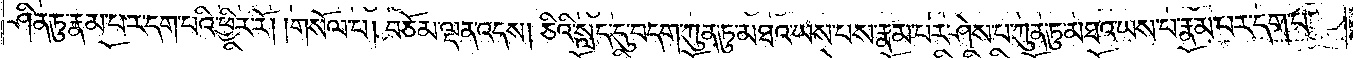ཤིན་ཏུ་རྣམ་པར་དག་པའི་ཕྱིར་རོ། །གསོལ་པ། བཅོམ་ལྡན་འདས། ཅིའི་སླད་དུ་བདག་ཀུན་ཏུ་མཐའ་ཡས་པས་རྣམ་པར་ཤེས་པ་ཀུན་ཏུ་མཐའ་ཡས་པ་རྣམ་པར་དག་པ་
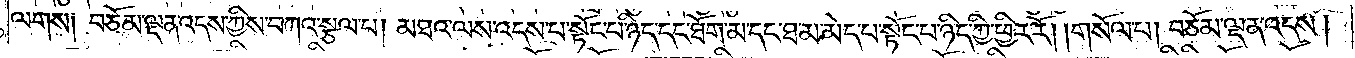ལགས༑ བཅོམ་ལྡན་འདས་ཀྱིས་བཀའ་སྩལ་པ། མཐའ་ལས་འདས་པ་སྟོང་པ་ཉིད་དང་ཐོག་མ་དང་ཐ་མ་མེད་པ་སྟོང་པ་ཉིད་ཀྱི་ཕྱིར་རོ། །གསོལ་པ། བཅོམ་ལྡན་འདས།
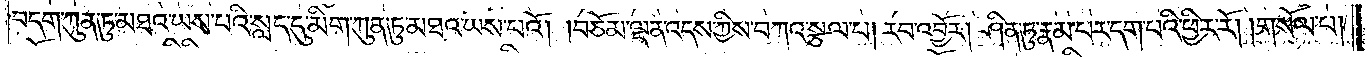བདག་ཀུན་ཏུ་མཐའ་ཡས་པའི་སླད་དུ་མིག་ཀུན་ཏུ་མཐའ་ཡས་པའོ། །བཅོམ་ལྡན་འདས་ཀྱིས་བཀའ་སྩལ་པ། རབ་འབྱོར། ཤིན་ཏུ་རྣམ་པར་དག་པའི་ཕྱིར་རོ། །གསོལ་པ།
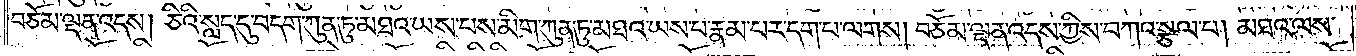བཅོམ་ལྡན་འདས། ཅིའི་སླད་དུ་བདག་ཀུན་ཏུ་མཐའ་ཡས་པས་མིག་ཀུན་ཏུ་མཐའ་ཡས་པ་རྣམ་པར་དག་པ་ལགས། བཅོམ་ལྡན་འདས་ཀྱིས་བཀའ་སྩལ་པ། མཐའ་ལས་
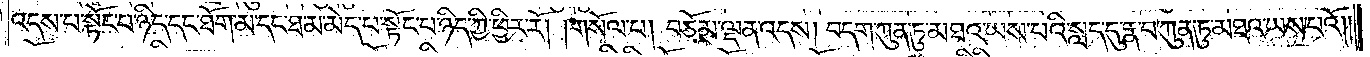འདས་པ་སྟོང་པ་ཉིད་དང་ཐོག་མ་དང་ཐ་མ་མེད་པ་སྟོང་པ་ཉིད་ཀྱི་ཕྱིར་རོ། །གསོལ་པ། བཅོམ་ལྡན་འདས། བདག་ཀུན་ཏུ་མཐའ་ཡས་པའི་སླད་དུ་རྣ་བ་ཀུན་ཏུ་མཐའ་ཡས་པའོ། །
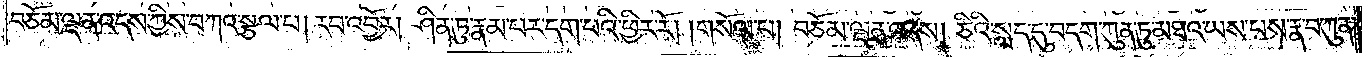བཅོམ་ལྡན་འདས་ཀྱིས་བཀའ་སྩལ་པ། རབ་འབྱོར། ཤིན་ཏུ་རྣམ་པར་དག་པའི་ཕྱིར་རོ། །གསོལ་པ། བཅོམ་ལྡན་འདས། ཅིའི་སླད་དུ་བདག་ཀུན་ཏུ་མཐའ་ཡས་པས་རྣ་བ་ཀུན་
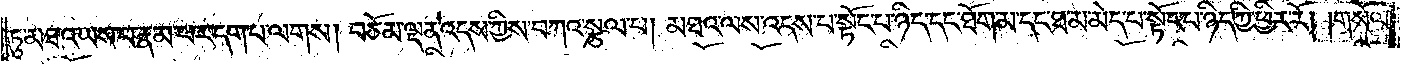ཏུ་མཐའ་ཡས་པ་རྣམ་པར་དག་པ་ལགས། བཅོམ་ལྡན་འདས་ཀྱིས་བཀའ་སྩལ་པ། མཐའ་ལས་འདས་པ་སྟོང་པ་ཉིད་དང་ཐོག་མ་དང་ཐ་མ་མེད་པ་སྟོང་པ་ཉིད་ཀྱི་ཕྱིར་རོ། །གསོལ་
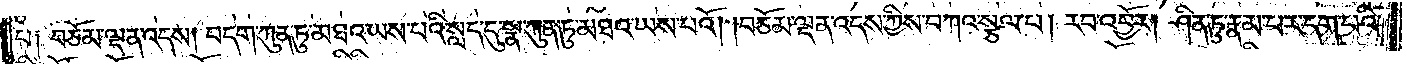པ༑ བཅོམ་ལྡན་འདས། བདག་ཀུན་ཏུ་མཐའ་ཡས་པའི་སླད་དུ་སྣ་ཀུན་ཏུ་མཐའ་ཡས་པའོ། །བཅོམ་ལྡན་འདས་ཀྱིས་བཀའ་སྩལ་པ། རབ་འབྱོར། ཤིན་ཏུ་རྣམ་པར་དག་པའི་
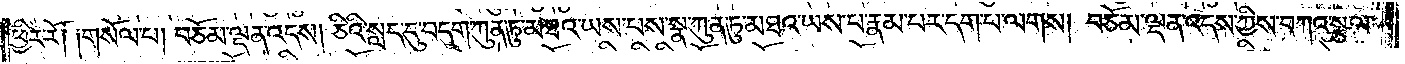ཕྱིར་རོ༑ ༑གསོལ་པ། བཅོམ་ལྡན་འདས། ཅིའི་སླད་དུ་བདག་ཀུན་ཏུ་མཐའ་ཡས་པས་སྣ་ཀུན་ཏུ་མཐའ་ཡས་པ་རྣམ་པར་དག་པ་ལགས། བཅོམ་ལྡན་འདས་ཀྱིས་བཀའ་སྩལ་
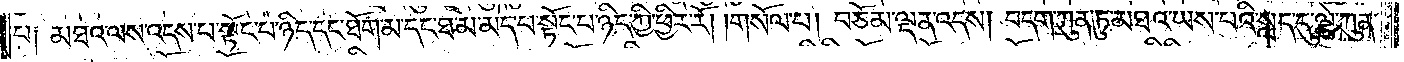པ༑ མཐའ་ལས་འདས་པ་སྟོང་པ་ཉིད་དང་ཐོག་མ་དང་ཐ་མ་མེད་པ་སྟོང་པ་ཉིད་ཀྱི་ཕྱིར་རོ། །གསོལ་པ། བཅོམ་ལྡན་འདས། བདག་ཀུན་ཏུ་མཐའ་ཡས་པའི་སླད་དུ་ལྕེ་ཀུན་
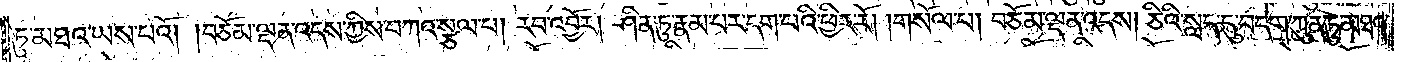ཏུ་མཐའ་ཡས་པའོ། །བཅོམ་ལྡན་འདས་ཀྱིས་བཀའ་སྩལ་པ། རབ་འབྱོར། ཤིན་ཏུ་རྣམ་པར་དག་པའི་ཕྱིར་རོ། །གསོལ་པ། བཅོམ་ལྡན་འདས། ཅིའི་སླད་དུ་བདག་ཀུན་ཏུ་མཐའ་
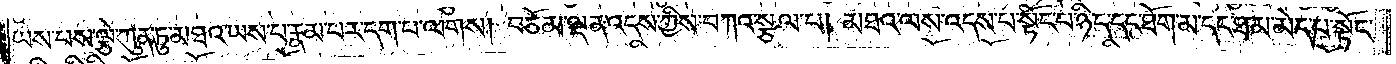ཡས་པས་ལྕེ་ཀུན་ཏུ་མཐའ་ཡས་པ་རྣམ་པར་དག་པ་ལགས། བཅོམ་ལྡན་འདས་ཀྱིས་བཀའ་སྩལ་པ། མཐའ་ལས་འདས་པ་སྟོང་པ་ཉིད་དང་ཐོག་མ་དང་ཐ་མ་མེད་པ་སྟོང་
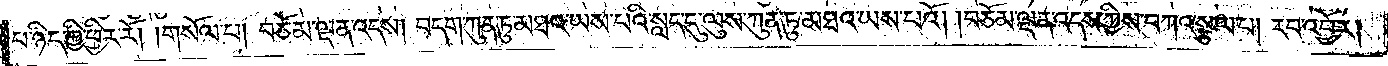པ་ཉིད་ཀྱི་ཕྱིར་རོ། །གསོལ་པ། བཅོམ་ལྡན་འདས། བདག་ཀུན་ཏུ་མཐའ་ཡས་པའི་སླད་དུ་ལུས་ཀུན་ཏུ་མཐའ་ཡས་པའོ། །བཅོམ་ལྡན་འདས་ཀྱིས་བཀའ་སྩལ་པ། རབ་འབྱོར།
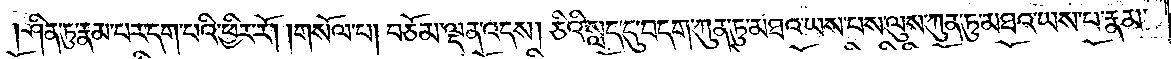ཤིན་ཏུ་རྣམ་པར་དག་པའི་ཕྱིར་རོ། །གསོལ་པ། བཅོམ་ལྡན་འདས། ཅིའི་སླད་དུ་བདག་ཀུན་ཏུ་མཐའ་ཡས་པས་ལུས་ཀུན་ཏུ་མཐའ་ཡས་པ་རྣམ་
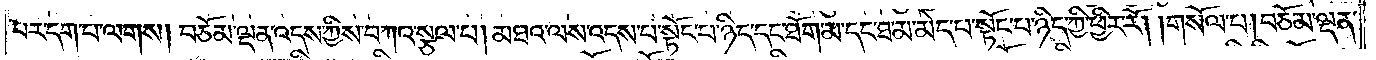པར་དག་པ་ལགས། བཅོམ་ལྡན་འདས་ཀྱིས་བཀའ་སྩལ་པ། མཐའ་ལས་འདས་པ་སྟོང་པ་ཉིད་དང་ཐོག་མ་དང་ཐ་མ་མེད་པ་སྟོང་པ་ཉིད་ཀྱི་ཕྱིར་རོ། །གསོལ་པ། བཅོམ་ལྡན་
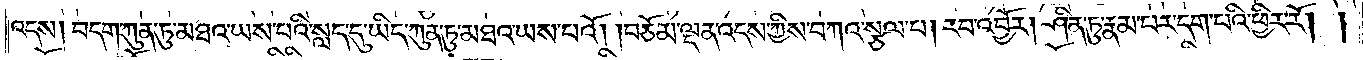འདས། བདག་ཀུན་ཏུ་མཐའ་ཡས་པའི་སླད་དུ་ཡིད་ཀུན་ཏུ་མཐའ་ཡས་པའོ། །བཅོམ་ལྡན་འདས་ཀྱིས་བཀའ་སྩལ་པ། རབ་འབྱོར། ཤིན་ཏུ་རྣམ་པར་དག་པའི་ཕྱིར་རོ། །
